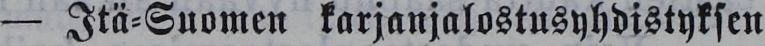— Itä-Suomen karjanjalostusyhdistyksen
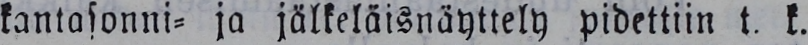kantosonni- ja jälkeläisnäyttely pidettiin t. k.
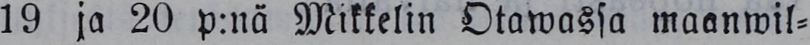19 ja 20 p:nä Mikkelin Otawassa maanwil-
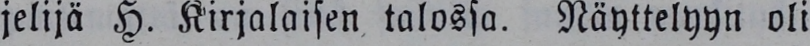jelijä H. Kirjalaisen talossa. Näyttelyyn oli
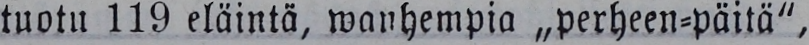tuotu 119 eläintä, wanhempia „perheen-päitä",
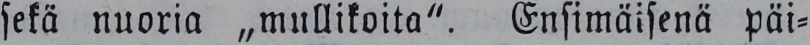sekä nuoria „mullikoita". Ensimäisenä päi-
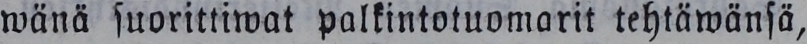wänä suorittiwat palkintotuomarit tehtäwänsä,
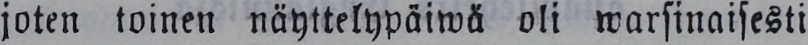joten toinen näyttelypäiwä oli warsinaisesti
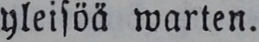yleisöä warten.
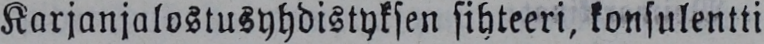Karjanjalostusyhdistyksen sihteeri, konsulentti
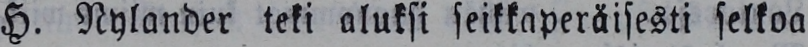H. Nylander teki aluksi seikkaperäisesti selkoa
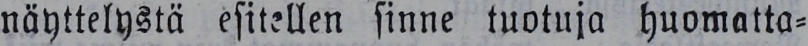näyttelystä esitellen sinne tuotuja huomatta-
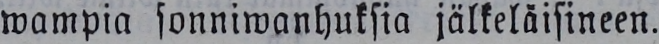wampia sonniwanhuksia jälkeläisineen.
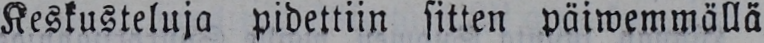Keskusteluja pidettiin sitten päiwemmällä
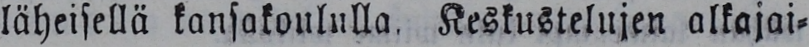läheisellä kansakoululla. Keskustelujen alkajai-
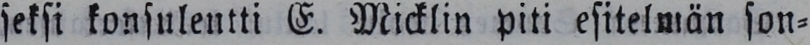siksi konsulentti E. Micklin piti esitelmän son-
